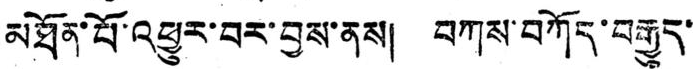མཐོན་པོ་འཕྱུར་བར་བྱས་ནས། བཀས་བཀོད་བརྒྱུད་
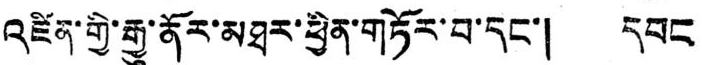འཛིན་གྱི་རྒྱུ་ནོར་མཐར་ཕྱིན་གཏོར་བ་དང་། དབང
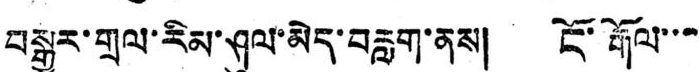བསྒྱུར་གྲལ་རིམ་ཤུལ་མེད་བརླག་ནས། ངོ་རྒོལ་་་་
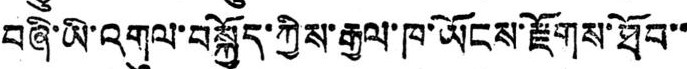བཞི་ཡི་འགུལ་བསྐྱོད་ཀྱིས་རྒྱལ་ཁ་ཡོངས་རྫོགས་ཐོབ་་
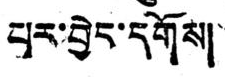པར་བྱེད་དགོས།
